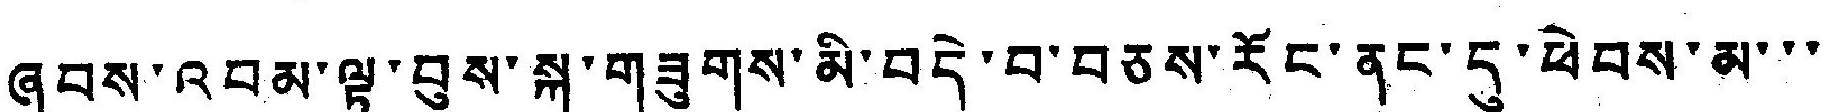ཞབས་འབམ་ལྟ་བུས་སྐུ་གཟུགས་མི་བདེ་བ་བཅས་རོང་ནང་དུ་ཕེབས་མ་་་
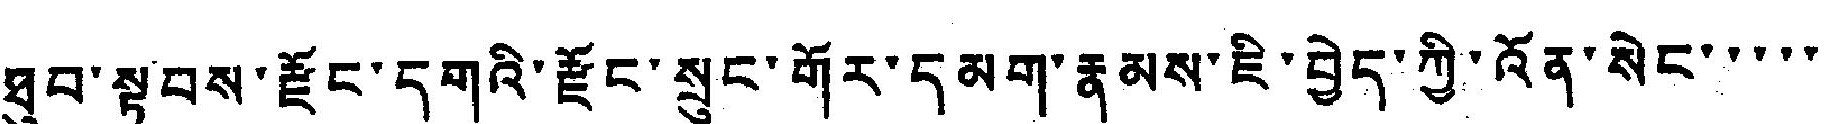ཐུབ་སྟབས་རྫོང་དགའི་རྫོང་སྲུང་གོར་དམག་རྣམས་ཇི་བྱེད་ཀྱི་འོན་སེང་་་་་
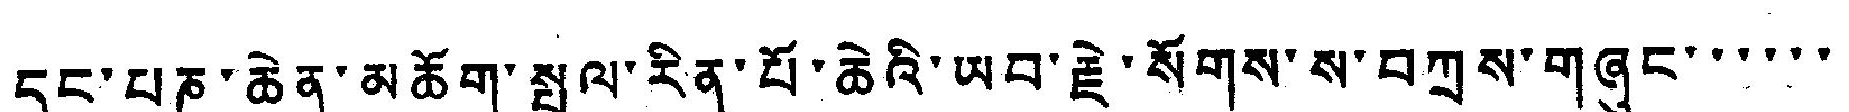དང་པཎ་ཆེན་མཆོག་སྤྲུལ་རིན་པོ་ཆེའི་ཡབ་རྗེ་སོགས་ས་བཀྲས་གཞུང་་་་་་
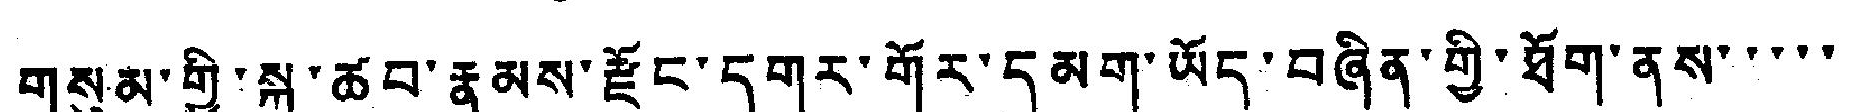གསུམ་གྱི་སྐུ་ཚབ་རྣམས་རྫོང་དགར་གོར་དམག་ཡོད་བཞིན་གྱི་ཐོག་ནས་་་་་
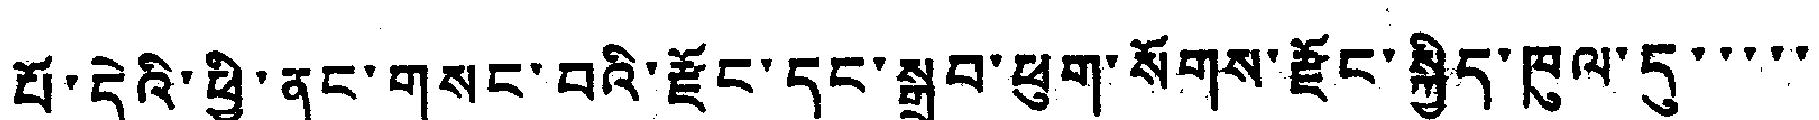པོ་དེའི་ཕྱི་ནང་གསང་བའི་རྫོང་དང་སྒྲུབ་ཕུག་སོགས་རྫོང་སྐྱིད་ཁུལ་དུ་་་་་
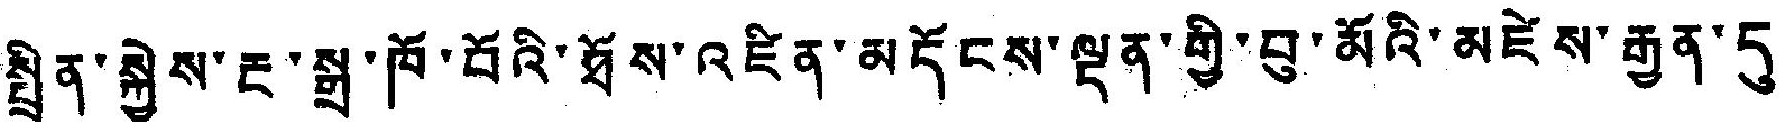སྤྲིན་སྐྱེས་རྔ་སྒྲ་ཁོ་བོའི་ཐོས་འཛིན་མདོངས་ལྡན་གྱི་བུ་མོའི་མཛེས་རྒྱན་དུ་
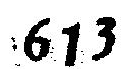613
